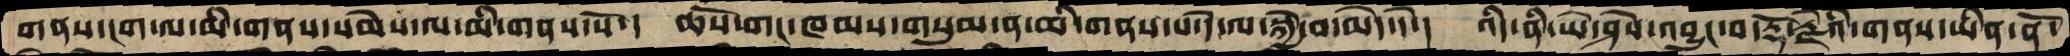གནས་ངག་ལ་མི་གནས་སེམས་ལ་མི་གནས་སོ་།  ཆོས་གང་ཁམས་གསུམ་ན་མི་གནས་པ་དེ་ལ་སྐྱེ་བ་མེད་དེ་།   འདི་ནི་ཡེ་ཤེས་འབྱུང་བ་རྡོ་རྗེའི་གནས་ཡིན་ནོ་
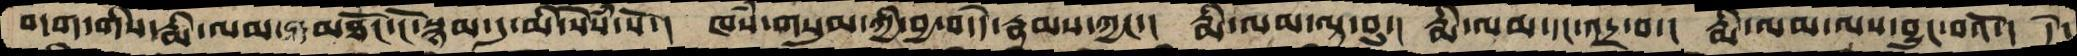བདག་གིས་རྨི་ལམ་ མཐོང་ངོ་སྙམ་དུ་མི་སེཾས་སོ་།  ཁཾས་གསུམ་གྱི་བྱ་བ་དེ་རྣམས་ཀྱང་།  རྨི་ལམ་ལྟ་བུ་།  རྨི་ལམ་དང་འདྲ་བ་།  རྨི་ལམ་ལས་བྱུང་བའོ་།   དེ་
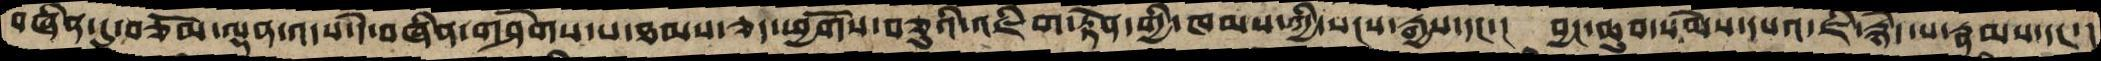བཞིན་དུ་བཅོམ་ལྡན་འདས་དེ་བཞིན་གཤེགས་པ་ཐམས་ཅད་ཕྱོགས་བཅུའི་འཇིག་རྟེན་གྱི་ཁམས་ཀྱི་སངས་རྒྱས་དང་།  བྱང་ཆུབ་སེམས་དཔའ་ཇི་རྙེད་པ་རྣམས་དང་།
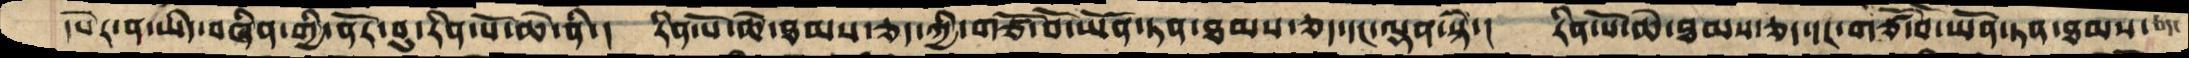དཔེར་ན་ཡིད་བཞིན་གྱི་ནོར་བུ་རིན་པོ་ཆེ་ནི་།   རིན་པོ་ཆེ་ཐམས་ཅད་ཀྱི་གཙོ་བོ་ཡོན་ཏན་ཐམས་ཅད་དང་ལྡན་སྟེ་།  རིན་པོ་ཆེ་ཐམས་ཅད་དང་གཙོ་བོ་ཡོན་ཏན་ཐམས་ཅད་
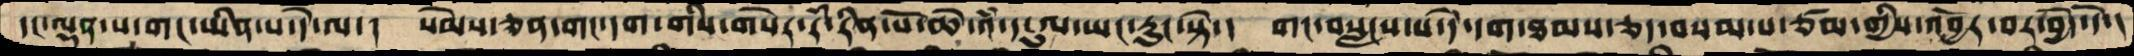དང་ལྡན་པ་གང་ཡིན་པ་དེ་ལ་།   སེམས་ཅན་གང་དག་གིས་གསེར་རཾ་རིན་པོ་ཆེ་འཾ་དངུལ་ཡང་རུང་སྟེ་།   གང་བསླངས་པ་དེ་དག་ཐམས་ཅད་བསམ་པ་ཙམ་གྱིས་འབྱོར་བར་བྱེད་དོ་།
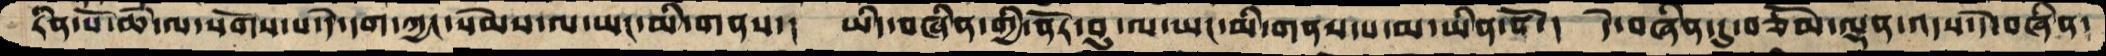རིན་པོ་ཆེ་ལ་སོགས་པ་དེ་དག་ཀྱང་སེམས་ལ་ཡང་མི་གནས་།  ཡིད་བཞིན་གྱི་ནོར་བུ་ལ་ཡང་མི་གནས་པ་མ་ཡིན་ནོ་།   དེ་བཞིན་དུ་བཅོམ་ལྡན་འདས་དེ་བཞིན་
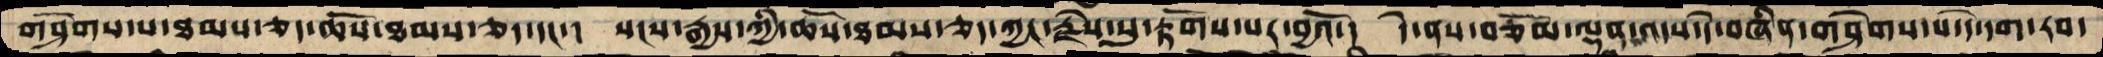གཤེགས་པ་ཐམས་ཅད་ཆོས་ཐམས་ཅད་དང་།   སངས་རྒྱས་ཀྱི་ཆོས་ཐམས་ཅད་ཀྱང་རྗེས་སུ་རྟོགས་པར་བྱའོ་།  དེ་ནས་བཅོམ་ལྡན་འདས་དེ་བཞིན་གཤེགས་པ་དེ་དག་རབ་
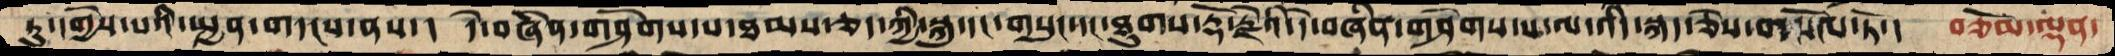ཏུ་དགྱེས་པའི་སྤྱན་གདངས་ནས་།  དེ་བཞིན་གཤེགས་པ་ཐམས་ཅད་ཀྱི་སྐུ་དང་གསུང་དང་ཐུགས་རྡོ་རྗེའི་དེ་བཞིན་གཤེགས་པ་ལ་འདི་སྐད་ཅེས་གསོལ་ཏོ་།  བཅོམ་ལྡན་
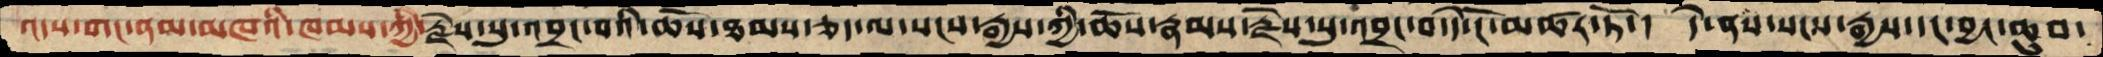འདས་གང་ནམ་མཁའི་ཁམས་ཀྱི་རྗེས་སུ་འབྲང་བའི་ཆོས་ཐམས་ཅད་ལ་སངས་རྒྱས་ཀྱི་ཆོས་རྣམས་རྗེས་སུ་འབྲང་བ་དེ་ངོ་མཚར་ཏོ་།  དེ་ནས་སངས་རྒྱས་དང་བྱང་ཆུབ་
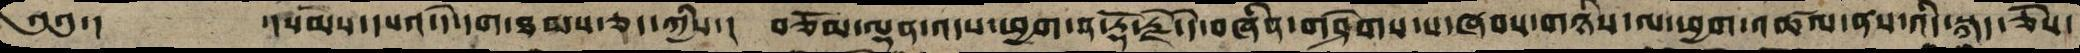༄༅་།   ་།སེམས་དཔའ་དེ་དག་ཐམས་ཅད་ཀྱིས་།  བཅོམ་ལྡན་འདས་ཕྱག་ན་རྡོ་རྗེ་དེ་བཞིན་གཤེགས་པ་ཞབས་གཉིས་ལ་ཕྱག་འཚལ་ནས་འདི་སྐད་ཅེས་
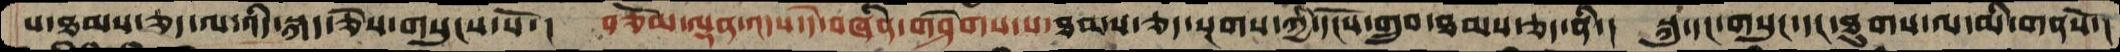པ་ཐམས་ཅད་ལ་འདི་སྐད་ཅེས་གསུངས་སོ་།  བཅོམ་ལྡན་འདས་དེ་བཞིན་གཤེགས་པ་ཐམས་ཅད་སྔགས་ཀྱི་དངོས་གྲུབ་ཐམས་ཅད་ནི་།  སྐུ་དང་གསུང་དང་ཐུགས་ལ་མི་གནསོ་།
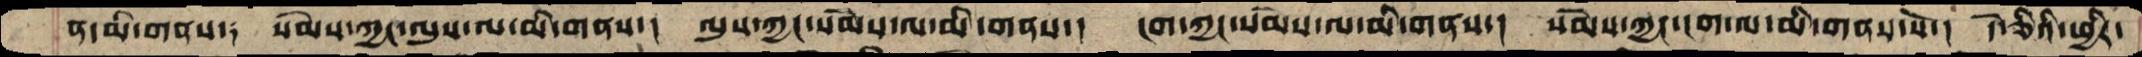ན་མི་གནས་།  སེམས་ཀྱང་ལུས་ལ་མི་གནས་།  ལུས་ཀྱང་སེམས་ལ་མི་གནས་།  ངག་ཀྱང་སེམས་ལ་མི་གནས་།  སེམས་ཀྱང་ངག་ལ་མི་གནས་སོ་།  དེ་ཅིའི་ཕྱིར་
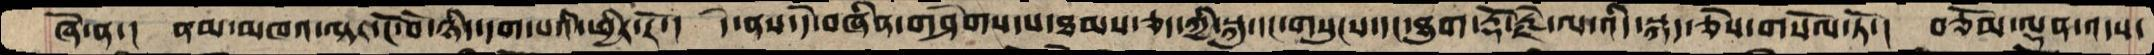ཞེ་ན་།  ནམ་མཁའ་ལྟར་ངོ་བོ་ཉིད་དག་པའི་ཕྱིར་རོ་།  དེ་ནས་དེ་བཞིན་གཤེགས་པ་ཐམས་ཅད་ཀྱི་སྐུ་དང་གསུངས་དང་ཐུག་རྡོ་རྗེ་ལ་འདི་སྐད་ཅེས་གསོལ་ཏོ་།  བཅོམ་ལྡན་འདས་
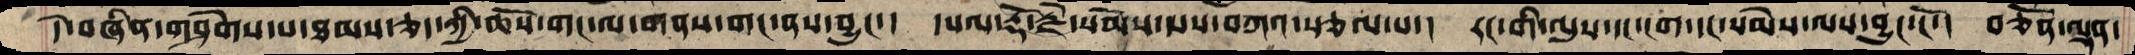དེ་བཞིན་གཤེགས་པ་ཐམས་ཅད་ཀྱི་ཆོས་གང་ལ་གནས་གང་ནས་བྱུང་།  དཔལ་རྡོ་རྗེ་སེམས་པས་བཀའ་སྩལ་པ་།  རང་གི་ལུས་དང་ངག་དང་སེམས་ལས་བྱུང་ངོ་།  བཅོམ་ལྡན་
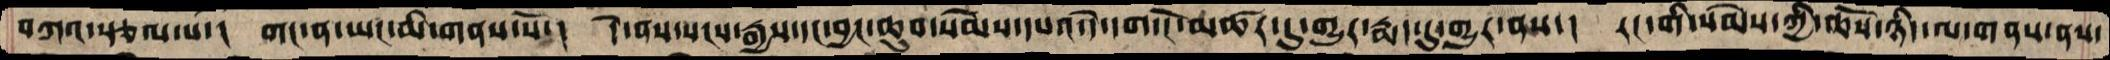བཀའ་སྩལ་པ་།  གང་ན་ཡང་མི་གནས་སོ་།  དེ་ནས་སངས་རྒྱས་དང་བྱང་ཆུབ་སེམས་དཔའ་དེ་དག་ངོ་མཚར་དུ་གྱུར་རྨད་དུ་གྱུར་ནས་།  རང་གི་སེམས་ཀྱི་ཆོས་ཉིད་ལ་གནས་ནས་
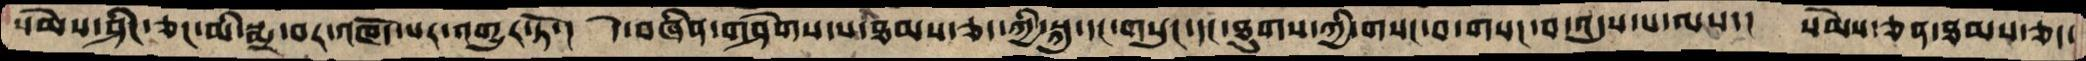སེམས་ཤིང་ཅང་མི་སྨྲ་བར་འཁོད་པར་འགྱུར་ཏོ་།  དེ་བཞིན་གཤེགས་པ་ཐམས་ཅད་ཀྱི་སྐུ་དང་གསུང་དང་ཐུགས་ཀྱི་གསང་བ་གསང་བ་འདུས་པ་ལས་།  སེམས་ཅན་ཐམས་ཅད་
